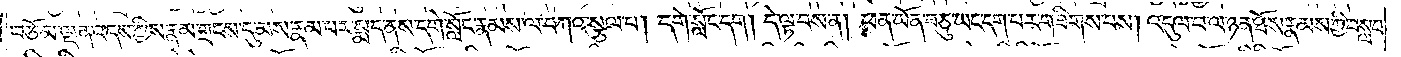བཅོམ་ལྡན་འདས་ཀྱིས་རྣམ་གྲངས་དུ་མས་རྣམ་པར་སྨད་ནས་དགེ་སློང་རྣམས་ལ་བཀའ་སྩལ་པ། དགེ་སློང་དག། དེ་ལྟ་བས་ན། ཕན་ཡོན་བཅུ་ཡང་དག་པར་གཟིགས་པས། འདུལ་བ་ལ་ཉན་ཐོས་རྣམས་ཀྱི་བསླབ་
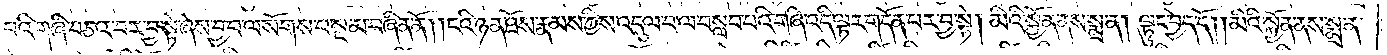པའི་གཞི་བཅའ་བར་བྱ་སྟེ་ཞེས་བྱ་བ་ལ་སོགས་པ་སྔ་མ་བཞིན་ནོ། །ངའི་ཉན་ཐོས་རྣམས་ཀྱིས་འདུལ་བ་ལ་བསླབ་པའི་གཞི་འདི་ལྟར་གདོན་པར་བྱ་སྟེ། མིའི་སྐྱོན་ནས་སྨྲ་ན། ལྟུང་བྱེད་དོ། །མིའི་སྐྱོན་ནས་སྨྲ་ན་
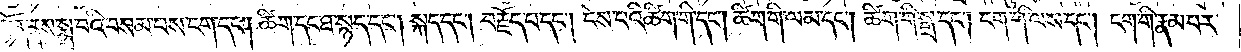སྐྱོན་ནས་སྨྲ་བའི་བསམ་པས་ངག་དང༌། ཚིག་དང་ཐ་སྙད་དང༌། སྐད་དང༌། བརྗོད་པ་དང༌། ངེས་པའི་ཚིག་གི་དང༌། ཚིག་གི་ལམ་དང༌། ཚིག་གི་སྒྲ་དང༌། ངག་གི་ལས་དང༌། ངག་གི་རྣམ་པར་
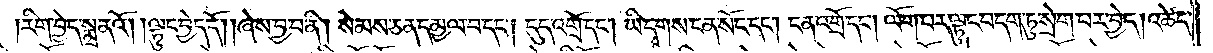རིག་བྱེད་སྨྲ་ནའོ། །ལྟུང་བྱེད་དོ། །ཞེས་བྱ་བ་ནི། སེམས་ཅན་དམྱལ་བ་དང༌། དུད་འགྲོ་དང༌། ཡི་དྭགས་ངན་སོང་དང༌། ངན་འགྲོ་དང༌། ལོག་པར་ལྟུང་བ་དག་ཏུ་སྲེག་པར་བྱེད། འཚེད་
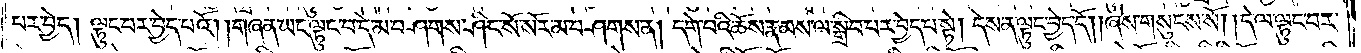པར་བྱེད། ལྟུང་བར་བྱེད་པའོ། །གཞན་ཡང་ལྟུང་བ་དེ་མ་བཤགས་ཤིང་སོ་སོར་མ་བཤགས་ན། དགེ་བའི་ཆོས་རྣམས་ལ་སྒྲིབ་པར་བྱེད་པ་སྟེ། དེས་ན་ལྟུང་བྱེད་དོ། །ཞེས་གསུངས་སོ། །དེ་ལ་ལྟུང་བར་
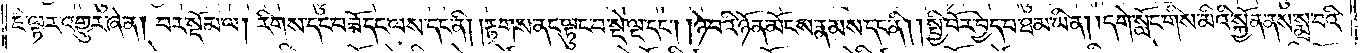ཇི་ལྟར་འགྱུར་ཞེ་ན། བར་སྡོམ་ལ། རིགས་དང་བཟོ་དང་ལས་དང་ནི། །རྟགས་ནང་ལྟུང་བ་སྡེ་ལྔ་དང༌། །ཉེ་བའི་ཉོན་མོངས་རྣམས་དང་ནི། །སྤྱི་བོར་བྱེད་པ་ཐ་མ་ཡིན། །དགེ་སློང་གིས་མིའི་སྐྱོན་ནས་སྨྲ་བའི་
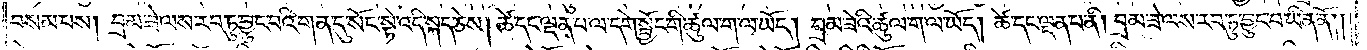བསམ་པས། བྲམ་ཟེ་ལས་རབ་ཏུ་བྱུང་བའི་གན་དུ་སོང་སྟེ་འདི་སྐད་ཅེས། ཚེ་དང་ལྡན་པ་ལ་དགེ་སྦྱོང་གི་ཚུལ་ག་ལ་ཡོད། བྲམ་ཟེའི་ཚུལ་ག་ལ་ཡོད། ཚེ་དང་ལྡན་པ་ནི། བྲམ་ཟེ་ལས་རབ་ཏུ་བྱུང་བ་ཡིན་ནོ༎
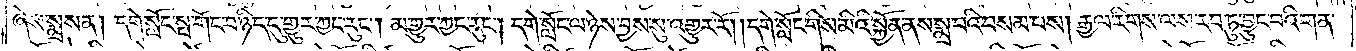ཞེས་སྨྲས་ན། དགེ་སློང་སྤ་གོང་བ་ཉིད་དུ་གྱུར་ཀྱང་རུང༌། མ་གྱུར་ཀྱང་རུང༌། དགེ་སློང་ལ་ཉེས་བྱས་སུ་འགྱུར་རོ། །དགེ་སློང་གིས་མིའི་སྐྱོན་ནས་སྨྲ་བའི་བསམ་པས། རྒྱལ་རིགས་ལས་རབ་ཏུ་བྱུང་བའི་གན་
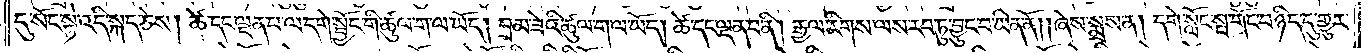དུ་སོང་སྟེ་འདི་སྐད་ཅེས། ཚེ་དང་ལྡན་པ་ལ་དགེ་སྦྱོང་གི་ཚུལ་ག་ལ་ཡོད། བྲམ་ཟེའི་ཚུལ་ག་ལ་ཡོད། ཚེ་དང་ལྡན་པ་ནི། རྒྱལ་རིགས་ལས་རབ་ཏུ་བྱུང་བ་ཡིན་ནོ། །ཞེས་སྨྲས་ན། དགེ་སློང་སྤ་གོང་བ་ཉིད་དུ་གྱུར་
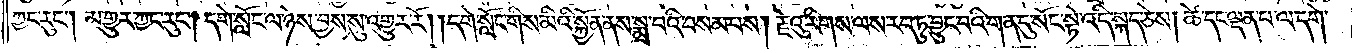ཀྱང་རུང༌། མ་གྱུར་ཀྱང་རུང༌། དགེ་སློང་ལ་ཉེས་བྱས་སུ་འགྱུར་རོ། །དགེ་སློང་གིས་མིའི་སྐྱོན་ནས་སྨྲ་བའི་བསམ་པས། རྗེའུ་རིགས་ལས་རབ་ཏུ་བྱུང་བའི་གན་དུ་སོང་སྟེ་འདི་སྐད་ཅེས། ཚེ་དང་ལྡན་པ་ལ་དགེ་
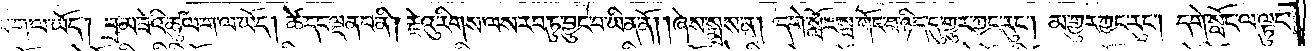ག་ལ་ཡོད། བྲམ་ཟེའི་ཚུལ་ག་ལ་ཡོད། ཚེ་དང་ལྡན་པ་ནི། རྗེའུ་རིགས་ལས་རབ་ཏུ་བྱུང་བ་ཡིན་ནོ། །ཞེས་སྨྲས་ན། དགེ་སློང་སྤ་གོང་བ་ཉིད་དུ་གྱུར་ཀྱང་རུང༌། མ་གྱུར་ཀྱང་རུང༌། དགེ་སློང་ལ་ལྟུང་
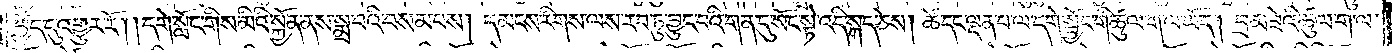བྱེད་དུ་འགྱུར་རོ། །དགེ་སློང་གིས་མིའི་སྐྱོན་ནས་སྨྲ་བའི་བསམ་པས། དམངས་རིགས་ལས་རབ་ཏུ་བྱུང་བའི་གན་དུ་སོང་སྟེ་འདི་སྐད་ཅེས། ཚེ་དང་ལྡན་པ་ལ་དགེ་སྦྱོང་གི་ཚུལ་ག་ལ་ཡོད། བྲམ་ཟེའི་ཚུལ་ག་ལ་
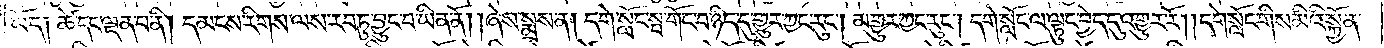ཡོད༑ ཚེ་དང་ལྡན་པ་ནི། དམངས་རིགས་ལས་རབ་ཏུ་བྱུང་བ་ཡིན་ནོ། །ཞེས་སྨྲས་ན། དགེ་སློང་སྤ་གོང་བ་ཉིད་དུ་གྱུར་ཀྱང་རུང༌། མ་གྱུར་ཀྱང་རུང༌། དགེ་སློང་ལ་ལྟུང་བྱེད་དུ་འགྱུར་རོ། །དགེ་སློང་གིས་མིའི་སྐྱོན་
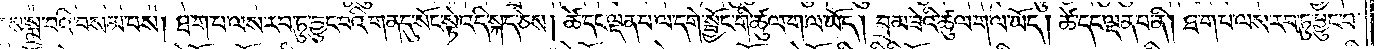ནས་སྨྲ་བའི་བསམ་པས། ཐ་ག་པ་ལས་རབ་ཏུ་བྱུང་བའི་གན་དུ་སོང་སྟེ་འདི་སྐད་ཅེས། ཚེ་དང་ལྡན་པ་ལ་དགེ་སྦྱོང་གི་ཚུལ་ག་ལ་ཡོད། བྲམ་ཟེའི་ཚུལ་ག་ལ་ཡོད། ཚེ་དང་ལྡན་པ་ནི། ཐ་ག་པ་ལས་རབ་ཏུ་བྱུང་བ་
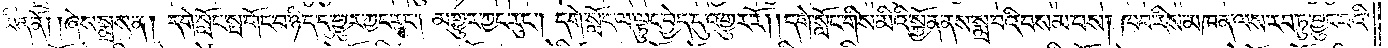ཡིན་ནོ། །ཞེས་སྨྲས་ན། དགེ་སློང་སྤ་གོང་བ་ཉིད་དུ་གྱུར་ཀྱང་རུང༌། མ་གྱུར་ཀྱང་རུང༌། དགེ་སློང་ལ་ལྟུང་བྱེད་དུ་འགྱུར་རོ། །དགེ་སློང་གིས་མིའི་སྐྱོན་ནས་སྨྲ་བའི་བསམ་པས། ཁབ་རིས་མཁན་ལས་རབ་ཏུ་བྱུང་བའི་
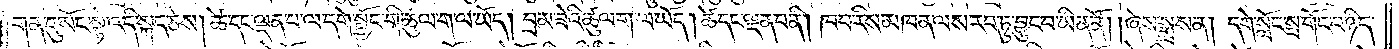གན་དུ་སོང་སྟེ་འདི་སྐད་ཅེས། ཚེ་དང་ལྡན་པ་ལ་དགེ་སྦྱོང་གི་ཚུལ་ག་ལ་ཡོད། བྲམ་ཟེའི་ཚུལ་ག་ལ་ཡོད། ཚེ་དང་ལྡན་པ་ནི། ཁབ་རིས་མཁན་ལས་རབ་ཏུ་བྱུང་བ་ཡིན་ནོ། །ཞེས་སྨྲས་ན། དགེ་སློང་སྤ་གོང་བ་ཉིད་
